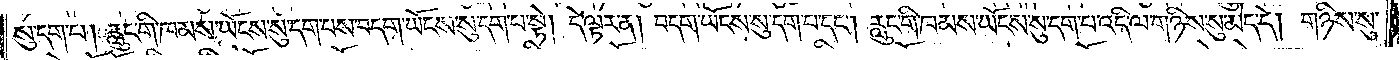སུ་དག་པ། རླུང་གི་ཁམས་ཡོངས་སུ་དག་པས་བདག་ཡོངས་སུ་དག་པ་སྟེ། དེ་ལྟར་ན། བདག་ཡོངས་སུ་དག་པ་དང༌། རླུང་གི་ཁམས་ཡོངས་སུ་དག་པ་འདི་ལ་གཉིས་སུ་མེད་དེ། གཉིས་སུ་
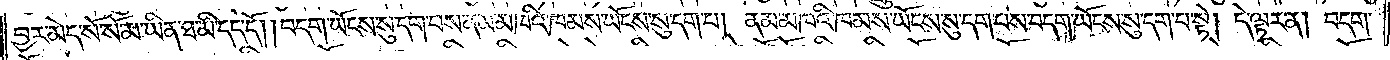བྱར་མེད་སོ་སོ་མ་ཡིན་ཐ་མི་དད་དོ། །བདག་ཡོངས་སུ་དག་པས་ནམ་མཁའི་ཁམས་ཡོངས་སུ་དག་པ། ནམ་མཁའི་ཁམས་ཡོངས་སུ་དག་པས་བདག་ཡོངས་སུ་དག་པ་སྟེ། དེ་ལྟར་ན། བདག་
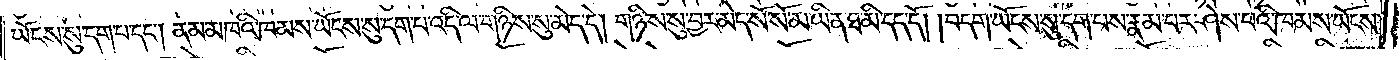ཡོངས་སུ་དག་པ་དང༌། ནམ་མཁའི་ཁམས་ཡོངས་སུ་དག་པ་འདི་ལ་གཉིས་སུ་མེད་དེ། གཉིས་སུ་བྱར་མེད་སོ་སོ་མ་ཡིན་ཐ་མི་དད་དོ། །བདག་ཡོངས་སུ་དག་པས་རྣམ་པར་ཤེས་པའི་ཁམས་ཡོངས་
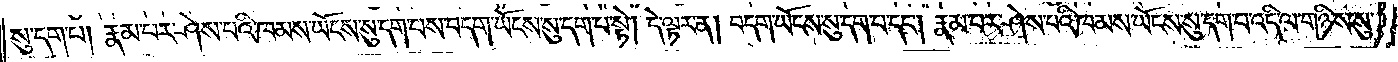སུ་དག་པ། རྣམ་པར་ཤེས་པའི་ཁམས་ཡོངས་སུ་དག་པས་བདག་ཡོངས་སུ་དག་པ་སྟེ། དེ་ལྟར་ན། བདག་ཡོངས་སུ་དག་པ་དང༌། རྣམ་པར་ཤེས་པའི་ཁམས་ཡོངས་སུ་དག་པ་འདི་ལ་གཉིས་སུ་
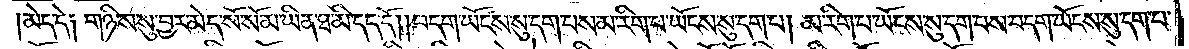མེད་དེ། གཉིས་སུ་བྱར་མེད་སོ་སོ་མ་ཡིན་ཐ་མི་དད་དོ། །བདག་ཡོངས་སུ་དག་པས་མ་རིག་པ་ཡོངས་སུ་དག་པ། མ་རིག་པ་ཡོངས་སུ་དག་པས་བདག་ཡོངས་སུ་དག་པ་
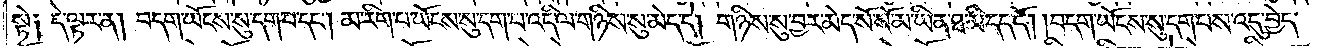སྟེ༑ དེ་ལྟར་ན། བདག་ཡོངས་སུ་དག་པ་དང༌། མ་རིག་པ་ཡོངས་སུ་དག་པ་འདི་ལ་གཉིས་སུ་མེད་དེ། གཉིས་སུ་བྱར་མེད་སོ་སོ་མ་ཡིན་ཐ་མི་དད་དོ། །བདག་ཡོངས་སུ་དག་པས་འདུ་བྱེད་
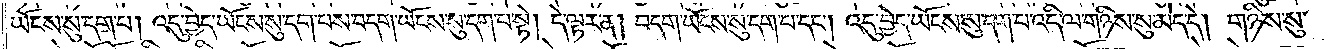ཡོངས་སུ་དག་པ། འདུ་བྱེད་ཡོངས་སུ་དག་པས་བདག་ཡོངས་སུ་དག་པ་སྟེ། དེ་ལྟར་ན། བདག་ཡོངས་སུ་དག་པ་དང༌། འདུ་བྱེད་ཡོངས་སུ་དག་པ་འདི་ལ་གཉིས་སུ་མེད་དེ། གཉིས་སུ་
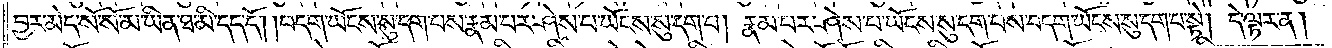བྱར་མེད་སོ་སོ་མ་ཡིན་ཐ་མི་དད་དོ། །བདག་ཡོངས་སུ་དག་པས་རྣམ་པར་ཤེས་པ་ཡོངས་སུ་དག་པ། རྣམ་པར་ཤེས་པ་ཡོངས་སུ་དག་པས་བདག་ཡོངས་སུ་དག་པ་སྟེ། དེ་ལྟར་ན།
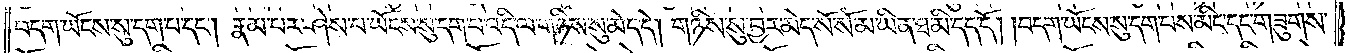བདག་ཡོངས་སུ་དག་པ་དང༌། རྣམ་པར་ཤེས་པ་ཡོངས་སུ་དག་པ་འདི་ལ་གཉིས་སུ་མེད་དེ། གཉིས་སུ་བྱར་མེད་སོ་སོ་མ་ཡིན་ཐ་མི་དད་དོ། །བདག་ཡོངས་སུ་དག་པས་མིང་དང་གཟུགས་
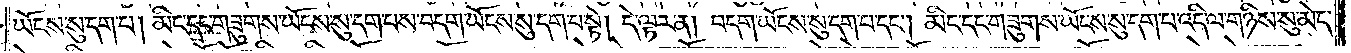ཡོངས་སུ་དག་པ། མིང་དང་གཟུགས་ཡོངས་སུ་དག་པས་བདག་ཡོངས་སུ་དག་པ་སྟེ། དེ་ལྟར་ན། བདག་ཡོངས་སུ་དག་པ་དང༌། མིང་དང་གཟུགས་ཡོངས་སུ་དག་པ་འདི་ལ་གཉིས་སུ་མེད་
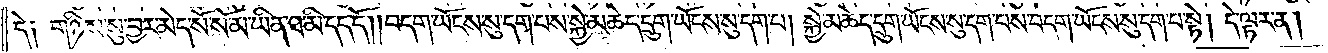དེ༑ གཉིས་སུ་བྱར་མེད་སོ་སོ་མ་ཡིན་ཐ་མི་དད་དོ། །བདག་ཡོངས་སུ་དག་པས་སྐྱེ་མཆེད་དྲུག་ཡོངས་སུ་དག་པ། སྐྱེ་མཆེད་དྲུག་ཡོངས་སུ་དག་པས་བདག་ཡོངས་སུ་དག་པ་སྟེ། དེ་ལྟར་ན།
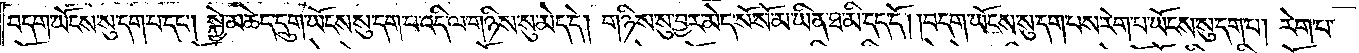བདག་ཡོངས་སུ་དག་པ་དང༌། སྐྱེ་མཆེད་དྲུག་ཡོངས་སུ་དག་པ་འདི་ལ་གཉིས་སུ་མེད་དེ། གཉིས་སུ་བྱར་མེད་སོ་སོ་མ་ཡིན་ཐ་མི་དད་དོ། །བདག་ཡོངས་སུ་དག་པས་རེག་པ་ཡོངས་སུ་དག་པ། རེག་པ་
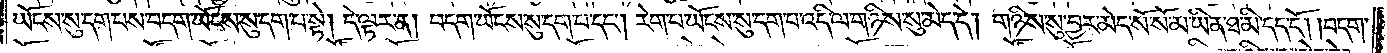ཡོངས་སུ་དག་པས་བདག་ཡོངས་སུ་དག་པ་སྟེ། དེ་ལྟར་ན། བདག་ཡོངས་སུ་དག་པ་དང༌། རེག་པ་ཡོངས་སུ་དག་པ་འདི་ལ་གཉིས་སུ་མེད་དེ། གཉིས་སུ་བྱར་མེད་སོ་སོ་མ་ཡིན་ཐ་མི་དད་དོ། །བདག་
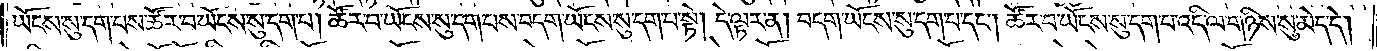ཡོངས་སུ་དག་པས་ཚོར་བ་ཡོངས་སུ་དག་པ། ཚོར་བ་ཡོངས་སུ་དག་པས་བདག་ཡོངས་སུ་དག་པ་སྟེ། དེ་ལྟར་ན། བདག་ཡོངས་སུ་དག་པ་དང༌། ཚོར་བ་ཡོངས་སུ་དག་པ་འདི་ལ་གཉིས་སུ་མེད་དེ།
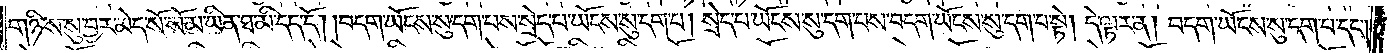གཉིས་སུ་བྱར་མེད་སོ་སོ་མ་ཡིན་ཐ་མི་དད་དོ། །བདག་ཡོངས་སུ་དག་པས་སྲེད་པ་ཡོངས་སུ་དག་པ། སྲེད་པ་ཡོངས་སུ་དག་པས་བདག་ཡོངས་སུ་དག་པ་སྟེ། དེ་ལྟར་ན། བདག་ཡོངས་སུ་དག་པ་དང༌།
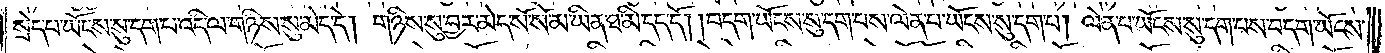སྲེད་པ་ཡོངས་སུ་དག་པ་འདི་ལ་གཉིས་སུ་མེད་དེ། གཉིས་སུ་བྱར་མེད་སོ་སོ་མ་ཡིན་ཐ་མི་དད་དོ། །བདག་ཡོངས་སུ་དག་པས་ལེན་པ་ཡོངས་སུ་དག་པ། ལེན་པ་ཡོངས་སུ་དག་པས་བདག་ཡོངས་
